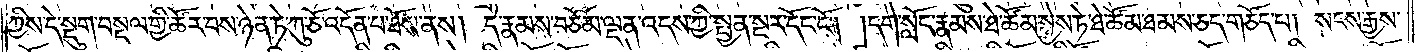ཀྱིས་དེ་སྡུག་བསྔལ་གྱི་ཚོར་བས་ཉེན་ཏེ་ཀུ་ཅོ་འདོན་པ་ཐོས་ནས། དེ་རྣམས་བཅོམ་ལྡན་འདས་ཀྱི་སྤྱན་སྔར་དོང་ངོ༌། །དགེ་སློང་རྣམས་ཐེ་ཚོམ་སྐྱེས་ཏེ་ཐེ་ཚོམ་ཐམས་ཅད་གཅོད་པ། སངས་རྒྱས་
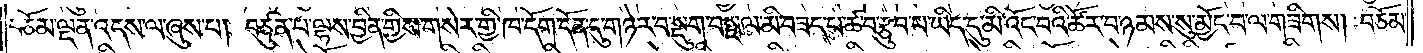བཅོམ་ལྡན་འདས་ལ་ཞུས་པ། བཙུན་པ་ལྷས་བྱིན་གྱིས་གསེར་གྱི་ཁ་དོག་དོན་དུ་གཉེར་བ་སྡུག་བསྔལ་མི་བཟད་པ་ཚ་བ་རྩུབ་པ་ཡིད་དུ་མི་འོང་བའི་ཚོར་བ་ཉམས་སུ་མྱོང་བ་ལ་གཟིགས། བཅོམ་
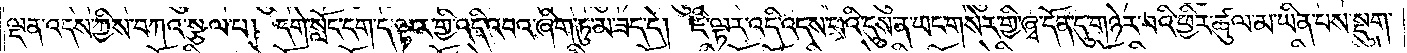ལྡན་འདས་ཀྱིས་བཀའ་སྩལ་པ། དགེ་སློང་དག་ད་ལྟར་གྱི་འདི་འབའ་ཞིག་ཏུ་མ་ཟད་དེ། ཇི་ལྟར་འདི་འདས་པའི་དུས་ན་ཡང་གསེར་གྱི་ཞྭ་དོན་དུ་གཉེར་བའི་ཕྱིར་ཚུལ་མ་ཡིན་པས་སྡུག་
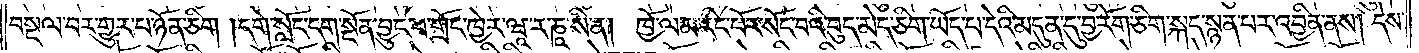བསྔལ་བར་གྱུར་པ་ཉོན་ཅིག །དགེ་སློང་དག་སྔོན་བྱུང་བ་གྲོང་ཁྱེར་ཝཱ་ར་ཎཱ་སི་ན། ཁྱོ་ལམ་རིང་པོར་སོང་བའི་བུད་མེད་ཅིག་ཡོད་པ་དེའི་མདུན་དུ་བྱ་རོག་ཅིག་སྐད་སྙན་པར་འབྱིན་ནས། དེས་
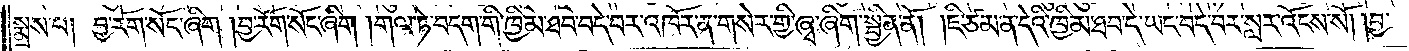སྨྲས་པ། བྱ་རོག་སོང་ཞིག །བྱ་རོག་སོང་ཞིག །གལ་ཏེ་བདག་གི་ཁྱིམ་ཐབ་བདེ་བར་འཁོར་ན་གསེར་གྱི་ཞྭ་ཞིག་སྦྱིན་ནོ། །ཇི་ཙམ་ན་དེའི་ཁྱིམ་ཐབ་དེ་ཡང་བདེ་བར་སླར་འོངས་སོ། །བྱ་
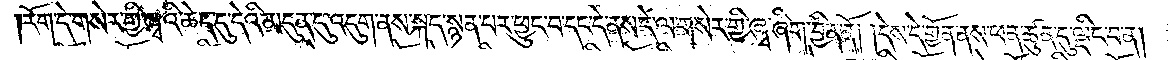རོག་དེ་གསེར་གྱི་ཞྭའི་ཆེད་དུ་དེའི་མདུན་དུ་འདུག་ནས་སྐད་སྙན་པར་ཕྱུང་བ་དང་དེ་ནས་དེ་ལ་གསེར་གྱི་ཞྭ་ཞིག་བྱིན་ནོ། །དེས་དེ་གྱོན་ནས་ཕན་ཚུན་དུ་ལྡིང་བ་ན།
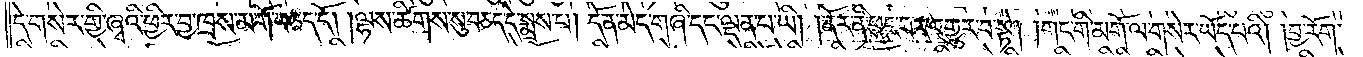དེ་གསེར་གྱི་ཞྭའི་ཕྱིར་བྱ་ཁྲས་མགོ་བཅད་དོ། །ལྷས་ཚིགས་སུ་བཅད་དེ་སྨྲས་པ། དོན་མེད་གཞི་དང་ལྡན་པ་ཡི། །ནོར་ནི་ཕུང་བར་འགྱུར་བ་སྟེ། །གང་གི་མགོ་ལ་གསེར་ཡོད་པའི། །བྱ་རོག་
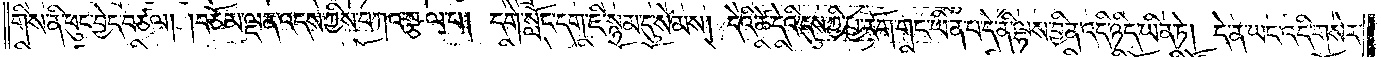གིས་ནི་ཕུང་བྱེད་བཙལ། །བཅོམ་ལྡན་འདས་ཀྱིས་བཀའ་སྩལ་པ། དགེ་སློང་དག་ཇི་སྙམ་དུ་སེམས། དེའི་ཚེ་དེའི་དུས་ཀྱི་བྱ་རོག་གང་ཡིན་པ་དེ་ནི་ལྷས་བྱིན་འདི་ཉིད་ཡིན་ཏེ། དེ་ན་ཡང་འདི་གསེར་
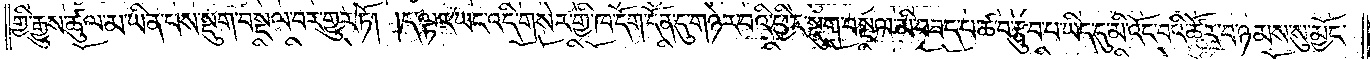གྱི་རྒྱུས་ཚུལ་མ་ཡིན་པས་སྡུག་བསྔལ་བར་གྱུར་ཏོ། །ད་ལྟར་ཡང་འདི་གསེར་གྱི་ཁ་དོག་དོན་དུ་གཉེར་བའི་ཕྱིར་སྡུག་བསྔལ་མི་བཟད་པ་ཚ་བ་རྩུབ་པ་ཡིད་དུ་མི་འོང་བའི་ཚོར་བ་ཉམས་སུ་མྱོང་
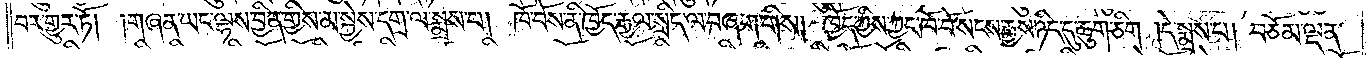བར་གྱུར་ཏོ། །གཞན་ཡང་ལྷས་བྱིན་གྱིས་མ་སྐྱེས་དགྲ་ལ་སྨྲས་པ། ཁོ་བོས་ནི་ཁྱོད་རྒྱལ་སྲིད་ལ་བཞག་གིས། ཁྱོད་ཀྱིས་ཀྱང་ཁོ་བོ་སངས་རྒྱས་ཉིད་དུ་ཆུག་ཅིག །དེས་སྨྲས་པ། བཅོམ་ལྡན་
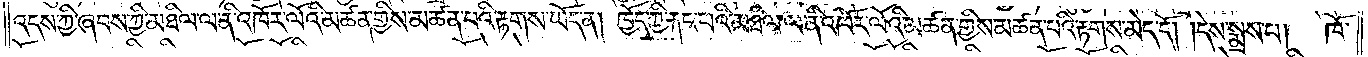འདས་ཀྱི་ཞབས་ཀྱི་མཐིལ་ལ་ནི་འཁོར་ལོའི་མཚན་གྱིས་མཚན་པའི་རྟགས་ཡོད་ན། ཁྱོད་ཀྱི་རྐང་པའི་མཐིལ་ལ་ནི་འཁོར་ལོའི་མཚན་གྱིས་མཚན་པའི་རྟགས་མེད་དོ། །དེས་སྨྲས་པ།  ཁོ་
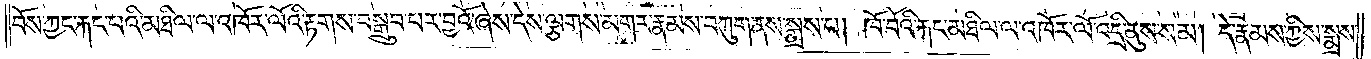བོས་ཀྱང་རྐང་པའི་མཐིལ་ལ་འཁོར་ལོའི་རྟགས་བསྒྲུབ་པར་བྱའོ་ཞེས་དེས་ལྕགས་མགར་རྣམས་བཀུག་ནས་སྨྲས་པ། ཁོ་བོའི་རྐང་མཐིལ་ལ་འཁོར་ལོ་འདྲི་ནུས་སམ། དེ་རྣམས་ཀྱིས་སྨྲས་
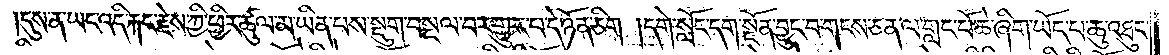།དུས་ན་ཡང་འདི་རྐང་རྗེས་ཀྱི་ཕྱིར་ཚུལ་མ་ཡིན་པས་སྡུག་བསྔལ་བར་གྱུར་པ་དེ་ཉོན་ཅིག །དགེ་སློང་དག་སྔོན་བྱུང་བ་གངས་ཅན་ལ་གླང་པོ་ཆེ་ཞིག་ཡོད་པ་ཆུ་འཐུང་
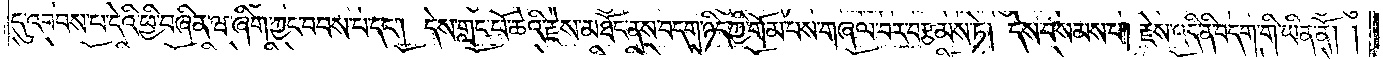དུ་འབབས་པ་དེའི་ཕྱི་བཞིན་ཝ་ཞིག་ཀྱང་བབས་པ་དང༌། དེས་གླང་པོ་ཆེའི་རྗེས་མཐོང་ནས་བདག་ཉིད་ཀྱི་གོམ་པས་གཞལ་བར་བརྩམས་ཏེ། དེས་བསམས་པ། རྗེས་འདི་ནི་བདག་གི་ཡིན་ནོ༎
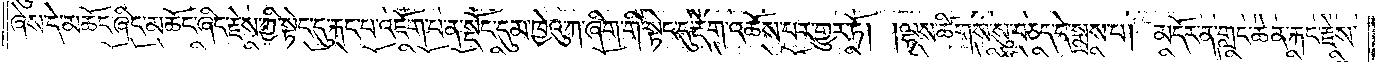ཞེས་དེ་མཆོང་ཞིང་མཆོང་ཞིང་རྗེས་ཀྱི་སྟེང་དུ་རྐང་པ་འཇོག་པ་ན་སྡོང་དུམ་ཁྱེའུ་ཀ་ཞིག་གི་སྟེང་དུ་རྡེག་འཆོས་པར་གྱུར་ཏོ། །ལྷས་ཚིགས་སུ་བཅད་དེ་སྨྲས་པ། མདོར་ན་གླང་ཆེན་རྐང་རྗེས་
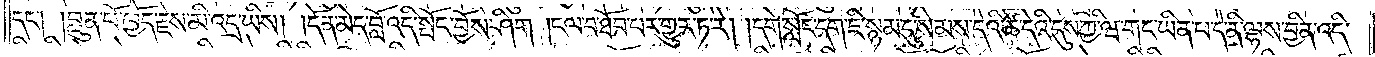དང༌། །བླུན་པོ་ཁྱོད་རྗེས་མི་འདྲ་ཡིས། །དོན་མེད་བློ་འདི་སྤོང་བྱོས་ཤིག །ངལ་བ་ཐོབ་པར་གྱུར་ཏ་རེ། །དགེ་སློང་དག་ཇི་སྙམ་དུ་སེམས་དེའི་ཚེ་དེའི་དུས་ཀྱི་ཝ་གང་ཡིན་པ་དེ་ནི་ལྷས་བྱིན་འདི་
